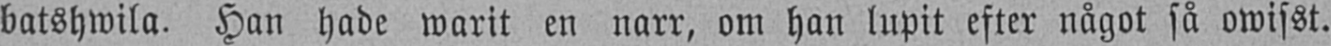batshwila. Han hade warit en narr, om han lupit efter något så owisst.
